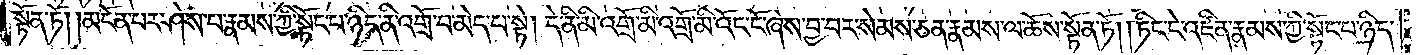སྟོན་ཏོ། །མངོན་པར་ཤེས་པ་རྣམས་ཀྱི་སྟོང་པ་ཉིད་ནི་འགྲོ་བ་མེད་པ་སྟེ། དེ་ནི་མི་འགྲོ་མི་འོང་ངོ་ཞེས་བྱ་བར་སེམས་ཅན་རྣམས་ལ་ཆོས་སྟོན་ཏོ། །ཏིང་ངེ་འཛིན་རྣམས་ཀྱི་སྟོང་པ་ཉིད་
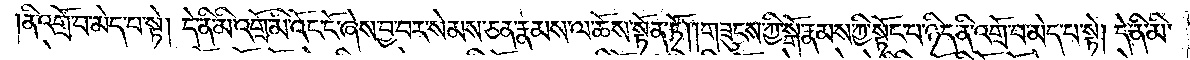ནི་འགྲོ་བ་མེད་པ་སྟེ། དེ་ནི་མི་འགྲོ་མི་འོང་ངོ་ཞེས་བྱ་བར་སེམས་ཅན་རྣམས་ལ་ཆོས་སྟོན་ཏོ། །གཟུངས་ཀྱི་སྒོ་རྣམས་ཀྱི་སྟོང་པ་ཉིད་ནི་འགྲོ་བ་མེད་པ་སྟེ། དེ་ནི་མི་
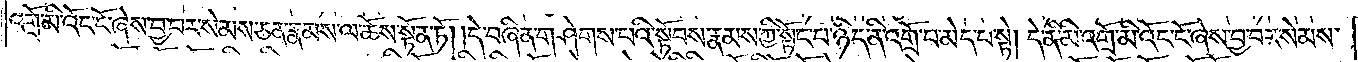འགྲོ་མི་འོང་ངོ་ཞེས་བྱ་བར་སེམས་ཅན་རྣམས་ལ་ཆོས་སྟོན་ཏོ། །དེ་བཞིན་གཤེགས་པའི་སྟོབས་རྣམས་ཀྱི་སྟོང་པ་ཉིད་ནི་འགྲོ་བ་མེད་པ་སྟེ། དེ་ནི་མི་འགྲོ་མི་འོང་ངོ་ཞེས་བྱ་བར་སེམས་
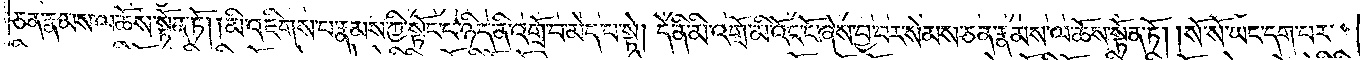ཅན་རྣམས་ལ་ཆོས་སྟོན་ཏོ། །མི་འཇིགས་པ་རྣམས་ཀྱི་སྟོང་པ་ཉིད་ནི་འགྲོ་བ་མེད་པ་སྟེ། དེ་ནི་མི་འགྲོ་མི་འོང་ངོ་ཞེས་བྱ་བར་སེམས་ཅན་རྣམས་ལ་ཆོས་སྟོན་ཏོ། །སོ་སོ་ཡང་དག་པར་
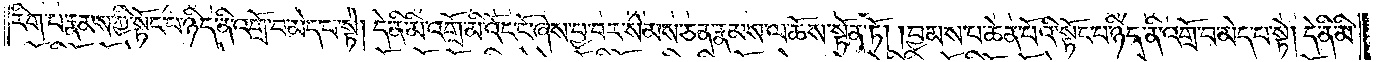རིག་པ་རྣམས་ཀྱི་སྟོང་པ་ཉིད་ནི་འགྲོ་བ་མེད་པ་སྟེ། དེ་ནི་མི་འགྲོ་མི་འོང་ངོ་ཞེས་བྱ་བར་སེམས་ཅན་རྣམས་ལ་ཆོས་སྟོན་ཏོ། །བྱམས་པ་ཆེན་པོའི་སྟོང་པ་ཉིད་ནི་འགྲོ་བ་མེད་པ་སྟེ། དེ་ནི་མི་
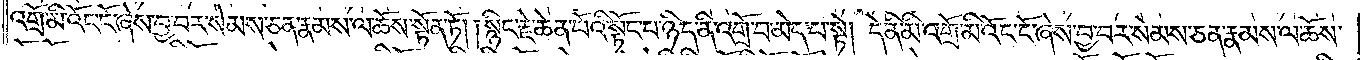འགྲོ་མི་འོང་ངོ་ཞེས་བྱ་བར་སེམས་ཅན་རྣམས་ལ་ཆོས་སྟོན་ཏོ། །སྙིང་རྗེ་ཆེན་པོའི་སྟོང་པ་ཉིད་ནི་འགྲོ་བ་མེད་པ་སྟེ། དེ་ནི་མི་འགྲོ་མི་འོང་ངོ་ཞེས་བྱ་བར་སེམས་ཅན་རྣམས་ལ་ཆོས་
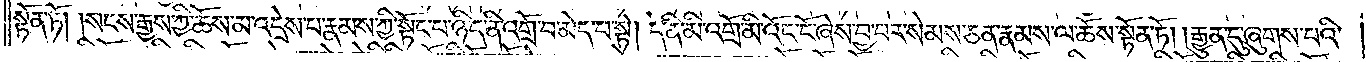སྟོན་ཏོ། །སངས་རྒྱས་ཀྱི་ཆོས་མ་འདྲེས་པ་རྣམས་ཀྱི་སྟོང་པ་ཉིད་ནི་འགྲོ་བ་མེད་པ་སྟེ། དེ་ནི་མི་འགྲོ་མི་འོང་ངོ་ཞེས་བྱ་བར་སེམས་ཅན་རྣམས་ལ་ཆོས་སྟོན་ཏོ། །རྒྱུན་དུ་ཞུགས་པའི་
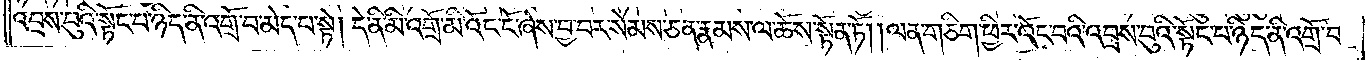འབྲས་བུའི་སྟོང་པ་ཉིད་ནི་འགྲོ་བ་མེད་པ་སྟེ། དེ་ནི་མི་འགྲོ་མི་འོང་ངོ་ཞེས་བྱ་བར་སེམས་ཅན་རྣམས་ལ་ཆོས་སྟོན་ཏོ། །ལན་གཅིག་ཕྱིར་འོང་བའི་འབྲས་བུའི་སྟོང་པ་ཉིད་ནི་འགྲོ་བ་
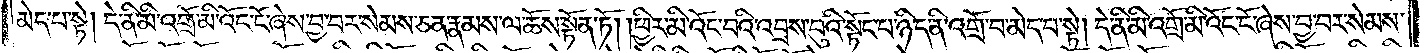མེད་པ་སྟེ། དེ་ནི་མི་འགྲོ་མི་འོང་ངོ་ཞེས་བྱ་བར་སེམས་ཅན་རྣམས་ལ་ཆོས་སྟོན་ཏོ། །ཕྱིར་མི་འོང་བའི་འབྲས་བུའི་སྟོང་པ་ཉིད་ནི་འགྲོ་བ་མེད་པ་སྟེ། དེ་ནི་མི་འགྲོ་མི་འོང་ངོ་ཞེས་བྱ་བར་སེམས་
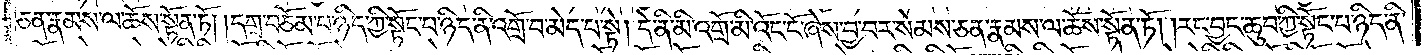ཅན་རྣམས་ལ་ཆོས་སྟོན་ཏོ། །དགྲ་བཅོམ་པ་ཉིད་ཀྱི་སྟོང་པ་ཉིད་ནི་འགྲོ་བ་མེད་པ་སྟེ། དེ་ནི་མི་འགྲོ་མི་འོང་ངོ་ཞེས་བྱ་བར་སེམས་ཅན་རྣམས་ལ་ཆོས་སྟོན་ཏོ། །རང་བྱང་ཆུབ་ཀྱི་སྟོང་པ་ཉིད་ནི་
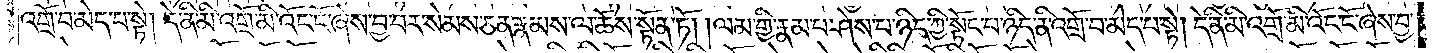འགྲོ་བ་མེད་པ་སྟེ། དེ་ནི་མི་འགྲོ་མི་འོང་ངོ་ཞེས་བྱ་བར་སེམས་ཅན་རྣམས་ལ་ཆོས་སྟོན་ཏོ། །ལམ་གྱི་རྣམ་པར་ཤེས་པ་ཉིད་ཀྱི་སྟོང་པ་ཉིད་ནི་འགྲོ་བ་མེད་པ་སྟེ། དེ་ནི་མི་འགྲོ་མི་འོང་ངོ་ཞེས་བྱ་
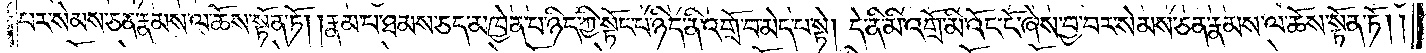བར་སེམས་ཅན་རྣམས་ལ་ཆོས་སྟོན་ཏོ། རྣམ་པ་ཐམས་ཅད་མཁྱེན་པ་ཉིད་ཀྱི་སྟོང་པ་ཉིད་ནི་འགྲོ་བ་མེད་པ་སྟེ། དེ་ནི་མི་འགྲོ་མི་འོང་ངོ་ཞེས་བྱ་བར་སེམས་ཅན་རྣམས་ལ་ཆོས་སྟོན་ཏོ། །
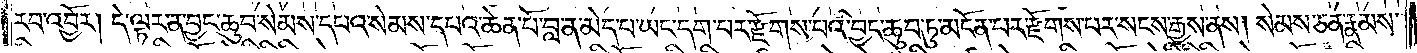རབ་འབྱོར། དེ་ལྟར་ན་བྱང་ཆུབ་སེམས་དཔའ་སེམས་དཔའ་ཆེན་པོ་བླ་ན་མེད་པ་ཡང་དག་པར་རྫོགས་པའི་བྱང་ཆུབ་ཏུ་མངོན་པར་རྫོགས་པར་སངས་རྒྱས་ནས། སེམས་ཅན་རྣམས་
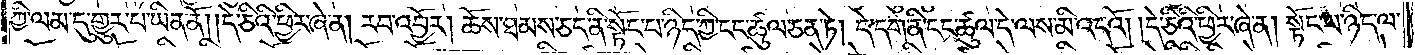ཀྱི་ལམ་དུ་གྱུར་པ་ཡིན་ནོ། །དེ་ཅིའི་ཕྱིར་ཞེ་ན། རབ་འབྱོར། ཆོས་ཐམས་ཅད་ནི་སྟོང་པ་ཉིད་ཀྱི་ངང་ཚུལ་ཅན་ཏེ། དེ་དག་ནི་ངང་ཚུལ་དེ་ལས་མི་འདའོ། །དེ་ཅིའི་ཕྱིར་ཞེ་ན། སྟོང་པ་ཉིད་ལ་
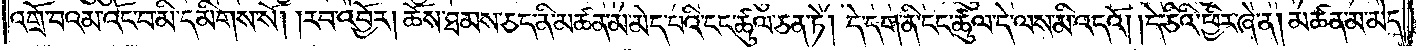འགྲོ་བའི་མ་འོང་བ་མི་དམིགས་སོ། །རབ་འབྱོར། ཆོས་ཐམས་ཅད་ནི་མཚན་མ་མེད་པའི་ངང་ཚུལ་ཅན་ཏེ། དེ་དག་ནི་ངང་ཚུལ་དེ་ལས་མི་འདའོ། །དེ་ཅིའི་ཕྱིར་ཞེ་ན། མཚན་མ་མེད་
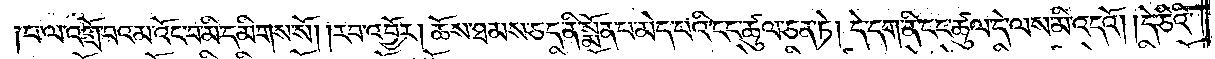པ་ལ་འགྲོ་བའམ་འོང་བ་མི་དམིགས་སོ། །རབ་འབྱོར། ཆོས་ཐམས་ཅད་ནི་སྨོན་པ་མེད་པའི་ངང་ཚུལ་ཅན་ཏེ། དེ་དག་ནི་ངང་ཚུལ་དེ་ལས་མི་འདའོ། །དེ་ཅིའི་
